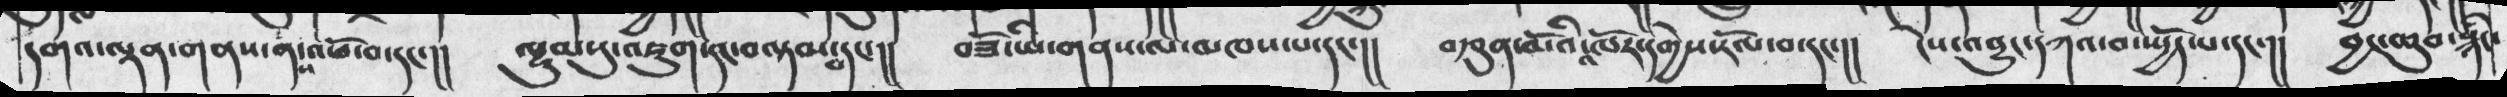དགའ་ལྡན་གནས་ནས་འཕོ་བ་དང་།།  ལྷུམསུ་འཇུག་དང་བལྟམ་པ་དང་།།   བཟོ་ཡི་གནས་ལ་མཁས་པ་དང་།།  བརྩུན་མོའི་འཁོར་དགྱེས་རོལ་བ་དང་།།  ངེས་འབྱུང་དཀའ་བ་སྤྱོད་པ་དང་།།   བྱང་ཆུབ་སྙིང་
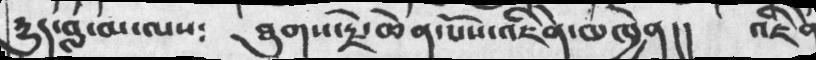དྱུད་བླ་མ་ལས༴    ཐུགས་རྗེ་ཆེན་པོས་འཇིེན་མཁྱེན།།  འཇིེན
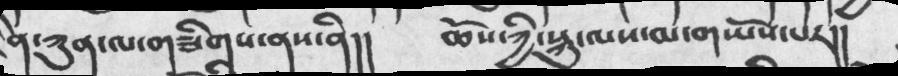ན་ཀུན་ལ་གཟིགས་ནས་ནི།།   ཆོས་ཀྱི་སྐུ་ལས་མ་གཡོས་པར།།
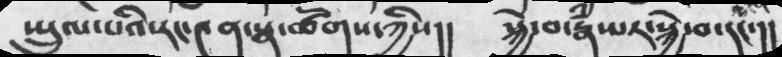སྤྲུལ་པའི་རང་༤ན་སྣ་ཚོགས་ཀྱིས།།  སྐྱེ་བ་རྣཾ་པར་སྐྱེ་བ་དང་།།
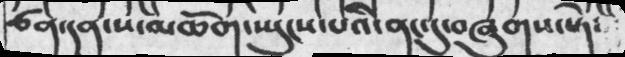ཙན་དན་ས་མཆོག་སྤུངས་པའི་ནང་དུ་བཞུགས་ཏེ༴
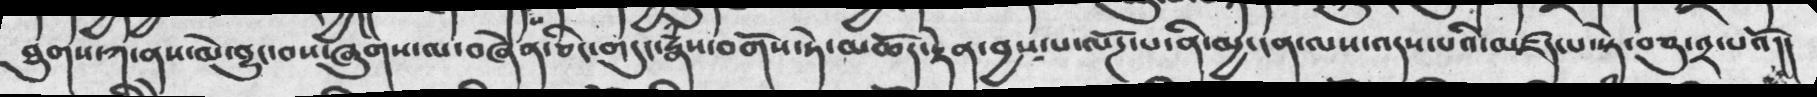ཐུགས་ཀ་ནས་མེ་བྱུང་བས་ཞུགས་ལ་བཞེན་ཅིང་གདུང་རྣཾས་བགོས་ཏེ་མཆོད་རྟེན་བྱས་པ་ལོཌ་པ་ནི་མྱ་ངན་ལས་འདས་པའི་མཛད་པ་སྟེ་བཅུ་༢་པའོ།།
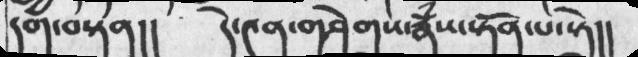དག་བསྟན།།     དེ་༤ན་གཤེགས་རྣཾས་སྟོན་པ་སྟེ།།
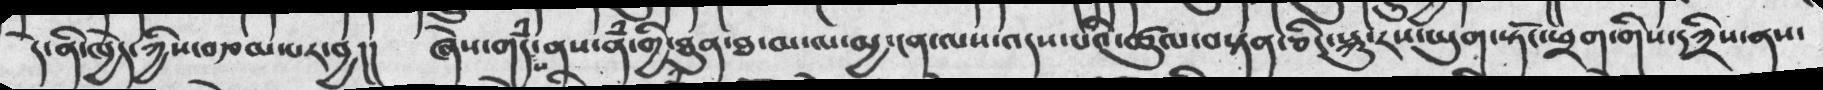དེ་ནི་ཁྱེད་ཀྱིས་བརྩམ་པར་བྱ།།  ཞེས་གདཾས་ནས་ནཾ་གྱི་ཐུན་ཐ་མ་ལ་མྱ་ངན་ལས་འདས་པའི་ཚུལ་བསྟན་ཅིང་སྐུ་རས་ཡུག་སྟོང་ཕྲག་གིས་དཀྲིས་ནས་
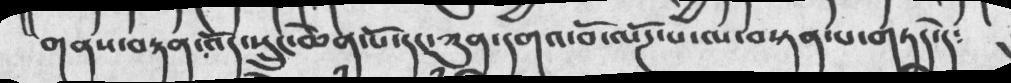གནས་བརྟན་འོད་སྲུང་ཆེན་པོ་དང་ཀུན་དགའ་བོ་ལོཌ་པ་ལ་བསྟན་པ་གཏད་དེ༴
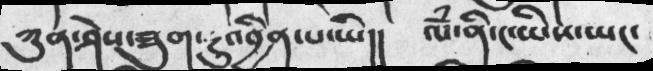ཀུན་ཤེས་ཟུག་རྔུ་འབྱིན་པ་ཡི།།   ལཾ་ནི་ང་ཡིས་ཡང་
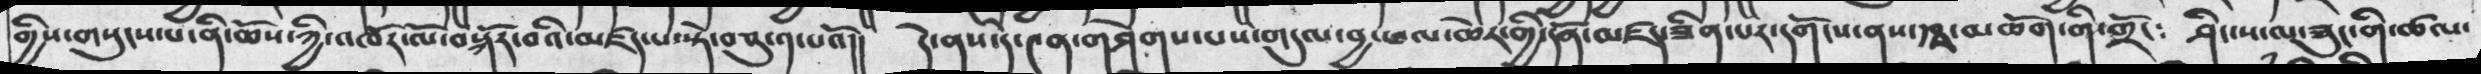གྱིས་གསུངས་པ་ནི་ཆོས་ཀྱི་འཁོར་ལོ་བསྐོར་བའི་མཛད་པ་སྟེ་བཅུ་༡་པའོ།།  དེ་ནས་དེ་༤ན་གཤེགས་པས་གདུལ་བྱ་ཕལ་ཆེར་གྱི་དོན་མཛད་ཟིན་པར་དགོངས་ནས་རྩྭ་མཆོག་གི་གྲོང༴  ཤིང་ས་ལ་ཟུང་གི་ཚལ་
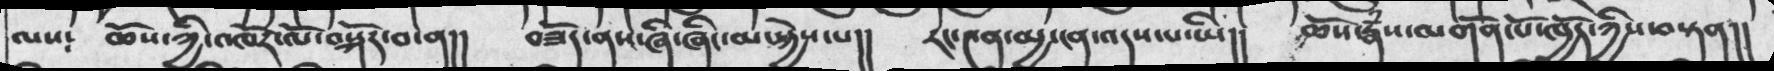ལས༴  ཆོས་ཀྱི་འཁོར་ལོ་བསྐོར་བ་ན།།   བཟོད་ནས་ཞི་ཞིང་མ་སྐྱེས་པ།།  རང་༤ན་མྱ་ངན་འདས་པ་ཡི།།  ཆོས་རྣཾས་མགོན་པོ་ཁྱོད་ཀྱིས་བསྟན།།
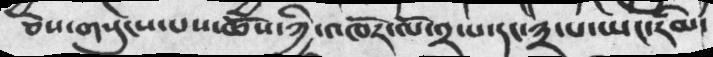ཅེས་གསུངས་པས་ཆོས་ཀྱི་འཁོར་ལོ་༢་པ་དང་༣་པ་ཡང་རིམ་
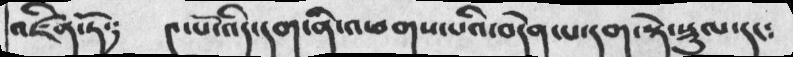འཛིན་ཏོ༑   ༤་པོ་འདི་དག་ནི་འཕགས་པའི་བདེན་པ་དག་སྟེ་སྡུལ་དང༴
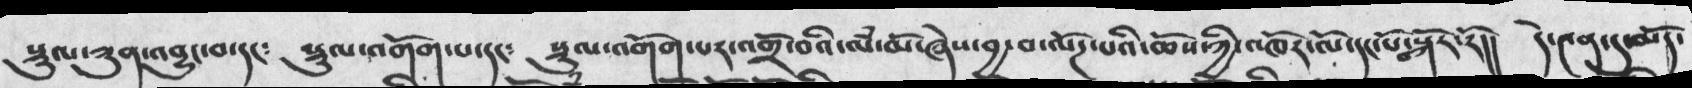སྡུལ་ཀུན་འབྱུང་བ་དང༴  སྡུལ་འགོག་པ་དང༴   སྡུལ་འགོག་པར་འགྲོ་བའི་ལཾ་མོ་ཞེས་བྱ་བ་ལོཌ་པའི་ཆོས་ཀྱི་འཁོར་ལོ་དང་པོ་བསྐོར་རོ།།   དེ་༤ན་དུ་མདོ་
